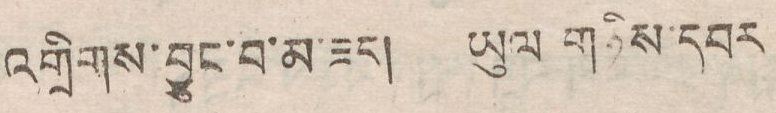འགྲིགས་བྱུང་བ་མ་ཟད། ཡུལ གཉིས་དབར
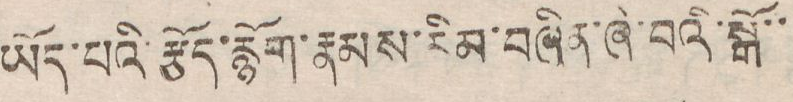ཡོད་པའི་རྩོད་རྙོག་རྣམས་རིམ་བཞིན་ཞི་བའི་སྒོ་་
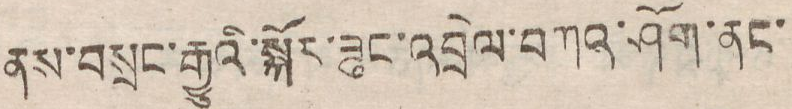ནས་བསྲང་རྒྱུའི་སྐོར་ཟུང་འབྲེལ་བཀའ་ཤོག་ནང་
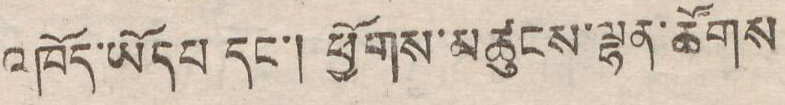འཁོད་ཡོདཔ དང་། ཕྱོགས་མཚུངས་ལྷན་ཚོགས
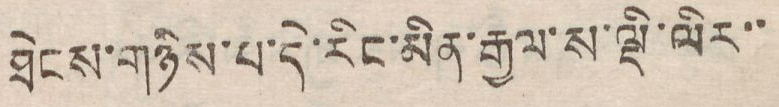ཐེངས་གཉིས་པ་དེ་རིང་མིན་རྒྱལ་ས་ལྡི་ལིར་་
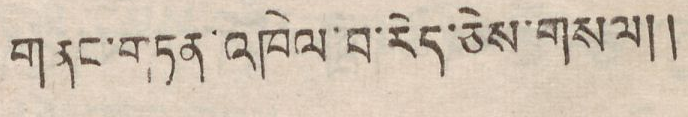གནང་གཏན་འཁེལ་བ་རེད་ཅེས་གསལ།།
